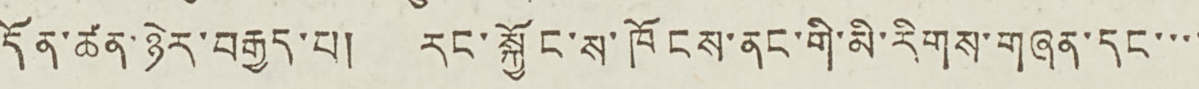དོན་ཚན་ཉེར་བརྒྱད་པ། རང་སྐྱོང་ས་ཁོངས་ནང་གི་མི་རིགས་གཞན་དང་་་་
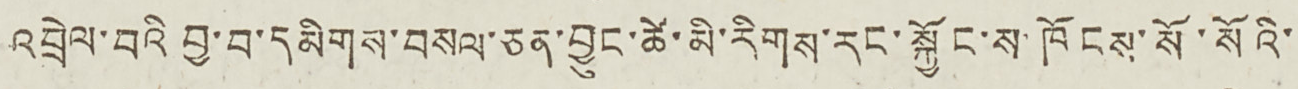འབྲེལ་བའི བྱ་བ་དམིགས་བསལ་ཅན་བྱུང་ཚེ་མི་རིགས་རང་སྐྱོང་ས་ཁོངས་སོ་སོའི་
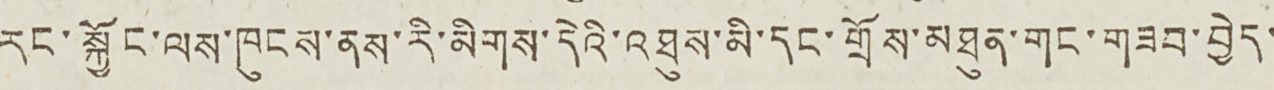རང་སྐྱོང་ལས་ཁུངས་ནས་རི་མིགས་དེའི་འཐུས་མི་དང་གྲོས་མཐུན་གང་གཟབ་བྱེད་
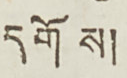དགོས།
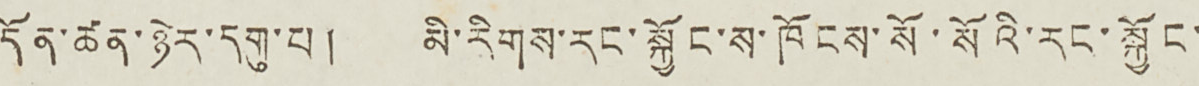དོན་ཚན་ཉེར་དགུ་པ། མི་རིགས་རང་སྐྱོང་ས་ཁོངས་སོ་སོའི་རང་སྐྱོང་
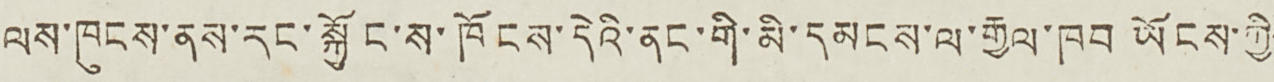ལས་ཁུངས་ནས་རང་སྐྱོང་ས་ཁོངས་དེའི་ནང་གི་མི་དམངས་ལ་རྒྱལ་ཁབ ཡོངས་ཀྱི་
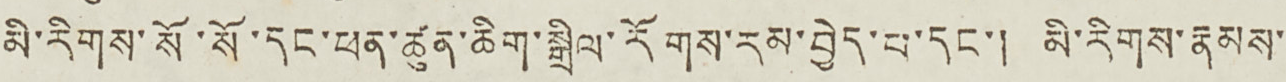མི་རིགས་སོ་སོ་དང་ཕན་ཚུན་ཆིག་སྒྲིལ་རོགས་རམ་བྱེད་པ་དང་། མི་རིགས་རྣམས་
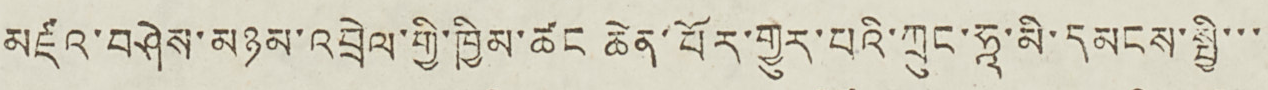མཛའ་བཤེས་མཉམ་འབྲེལ་གྱི་ཁྱིམ་ཚང ཆེན་པོར་གྱུར་པའི་ཀྲུང་ཧཱ་མི་དམངས་སྤྱི་་་་
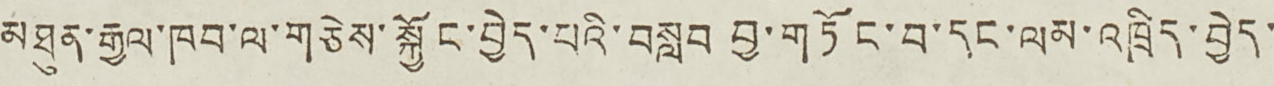མཐུན་རྒྱལ་ཁབ་ལ་གཅེས་སྐྱོང་བྱེད་པའི་བསླབ བྱ་གཏོང་བ་དང་ལམ་འཁྲིད་བྱེད་
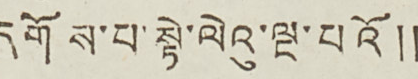དགོས་པ་སྟེ་ལེའུ་ལྔ་པའོ༎
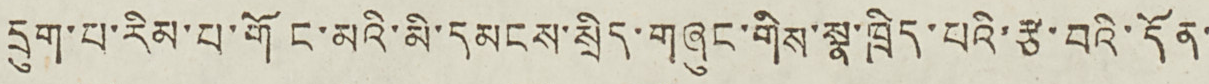དྲུག་པ་རིམ་པ་གོང་མའི་མི་དམངས་སྲིད་གཞུང་གིས་སྣ་ཁྲིད་པའི་རྩ་བའི་དོན་
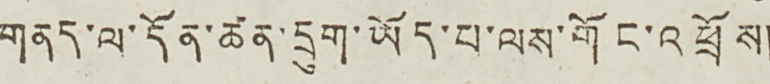གནད་ལ་དོན་ཚན་དྲུག་ཡོད་པ་ལས་གོང་འཕྲོས།
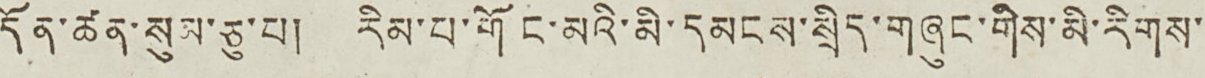དོན་ཚན་སུམ་ཅུ་པ། རིམ་པ་གོང་མའི་མི་དམངས་སྲིད་གཞུང་གིས་མི་རིགས་
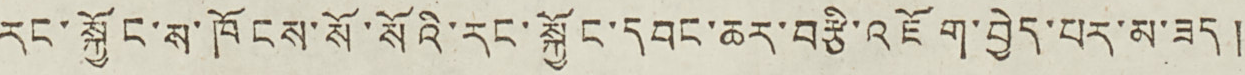རང་སྐྱོང་ས་ཁོངས་སོ་སོའི་རང་སྐྱོང་དབང་ཆར་བརྩི་འཇོག་བྱེད་པར་མ་ཟད།
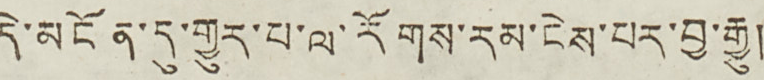དེ་མངོན་དུ་གྱུར་པ་ལ་རོགས་རམ་ངེས་པར་བྱ་རྒྱུ།
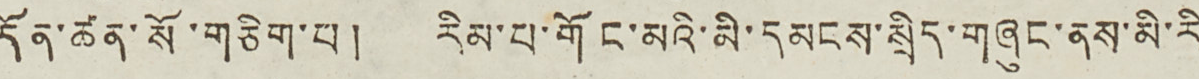དོན་ཚན་སོ་གཅིག་པ། རིམ་པ་གོང་མའི་མི་དམངས་སྲིད་གཞུང་ནས་མི་རི
